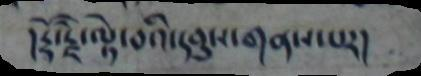།རྡོ་རྗེ་ལྟེ་བའི་དབུས་གནས་པར།
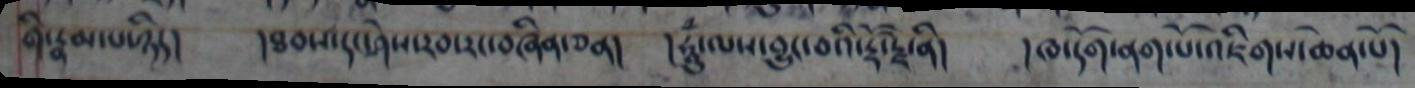གི་རྣམ་པ་ཉིད། །ཐབས་དང་ཤེས་རབ་རང་བཞིན་ཅན། །ཧཱུཾ་ལས་བྱུང་བའི་རྡོ་རྗེ་ནི། །ཁ་དོག་ནག་པོ་འཇིགས་ཆེན་པོ།
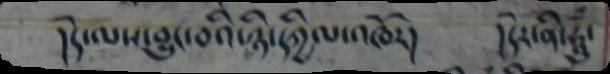།དེ་ལས་བྱུང་བའི་ཉཱི་དཀྱིལ་འཁོར། །དེར་ནི་ཧཱུཾ་
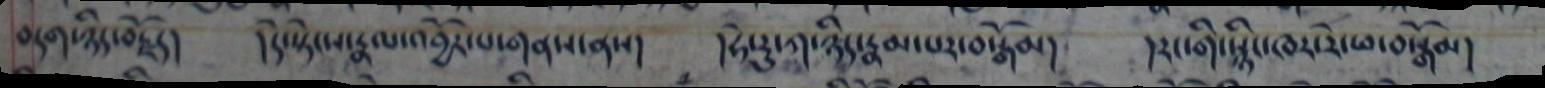བདག་ཉིད་བརྗོད། །དེ་སྟེངས་རྣལ་འབྱོར་པ་གནས་ནས། །ཧེ་རུ་ཀ་ཉིད་རྣམ་པར་བསྒོམ། །རང་གི་སྙིང་ཁར་རེ་ཕ་བསྒོམ།
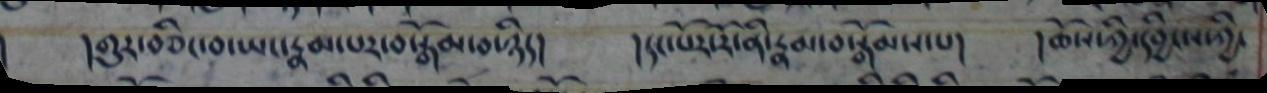།གུར་བཅིང་བ་ཡང་རྣམ་པར་བསྒོམ་བ་ཉིད། །དང་པོར་རོ་ནི་རྣམ་བསྒོམས་པ། །ཆོས་ཀྱི་དབྱིངས་ཀྱི་
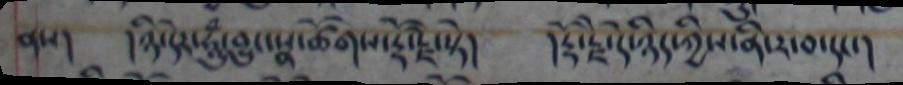ནས། །ཉི་དེར་ཧཱུཾ་བྱུང་སྣ་ཚོགས་རྡོ་རྗེ་སྟེ། །རྡོ་རྗེ་དེ་ཉིད་ཀྱིས་ནི་ར་བ་དང་།
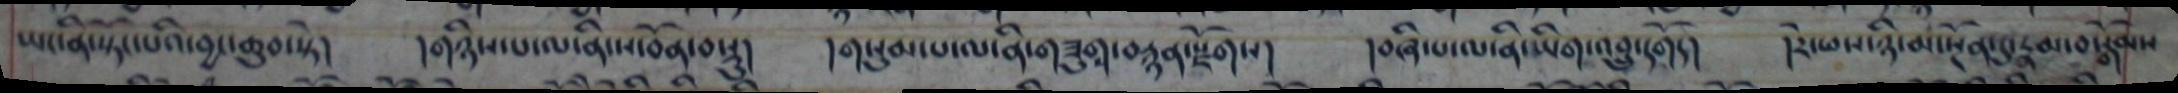ཡང་ནི་སྟོང་པའི་བྱང་ཆུབ་སྟེ། །གཉིས་པ་ལ་ནི་ས་བོན་བསྡུ། །གསུམ་པ་ལ་ནི་གཟུག་བརྙན་སྫོགས། །བཞི་པ་ལ་ནི་ཡིག་འབྲུ་དགོད། །རེ་ཕས་ཉི་མ་སྔོན་དུ་རྣམ་བསྒོམས
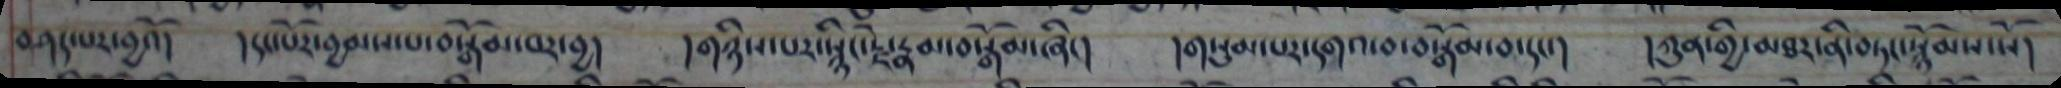བཤད་པར་བྱའོ། །དང་པོར་བྱམས་པ་བསྒོམ་བར་བྱ། །གཉིས་པར་སྙིང་རྗེ་རྣམ་བསྒོམ་ཞིང། །གསུམ་པར་དགའ་བ་བསྒོམ་བ་དང་། །ཀུན་གྱི་མཐར་ནི་བཏང་སྙོམས་སོ།
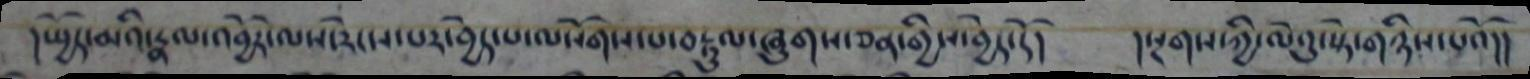།སྤྱོད་མའི་རྣལ་འབྱོར་ལས་རེངས་པར་བྱེད་པ་ལསོགས་པ་བརྟུལ་ཞུགས་ཅན་གྱིས་བྱེད་དོ། །སྔགས་ཀྱི་ལེའུ་སྟེ་གཉིས་པའོ།།
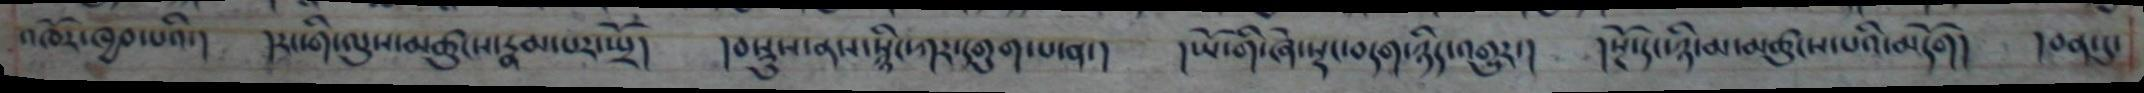འཁོར་ཁྱབ་པའི་། །རང་གི་ལུས་མཚུངས་རྣམ་པར་སྤྲོ། །བསྡུས་ནས་སྙིང་ཀར་དགུག་པ་ན་། ཡོ་གི་ཞེ་སྡང་བདག་ཉིད་འགྱུར་། །སྔོ་དང་ཉི་མ་མཚུངས་པའི་མདོག། །བན་དུ་
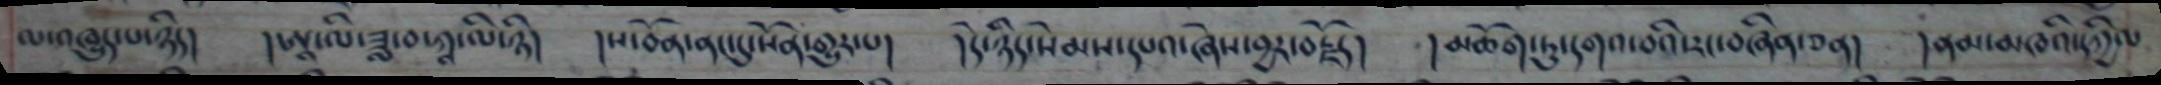མ་འཁྱུད་པ་ཉིད།  །ཨཱ་ལི་ཟླ་བ་ཀཱ་ལི་ཉི།  །ས་བོན་ནང་དུ་སོན་གྱུར་པ།  །དེ་ཉིད་སེམས་དཔའ་ཞེས་བྱར་བརྗོད།  །མཆོག་ཏུ་དགའ་བའི་རང་བཞིན་ཅན།   །ནམ་མཁའི་དཀྱིལ
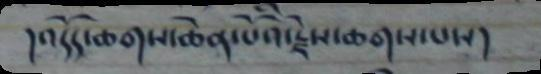།འདོད་ཆགས་ཆེན་པོའི་རྗེས་ཆགས་པས།
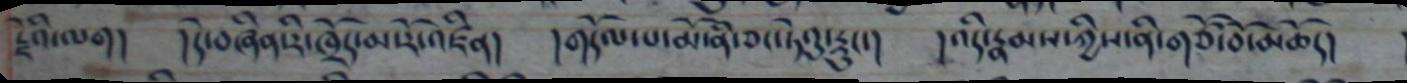རྗེའི་ལག།  །དེ་བཞིན་རི་ཁྲོད་མ་རོ་འཛིན།  །གདོལ་པ་མོ་ནི་ཅང་ཏེའུ་རྟུང་།  །འདི་རྣམས་ཀྱིས་ནི་གཙོ་བོ་མཆོད
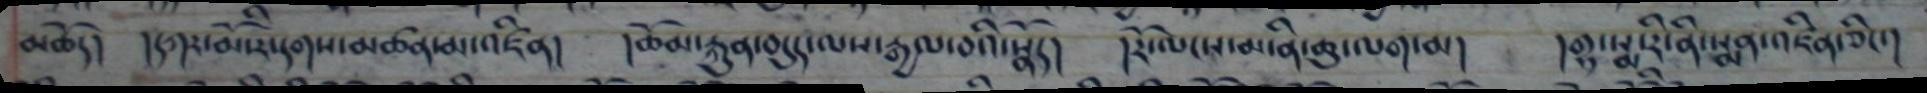མཆོད།  །དཀར་མོ་རི་དགས་མཚན་མ་འཛིན།  །ཆོམ་རྐུན་བདུད་ལས་རྒྱལ་བའི་སྣོད།  །རོ་ལངས་མ་ནི་ཆུ་ལག་མ། །གྷ་སྨ་རི་ནི་སྨན་འཛིན་ཅིང་།
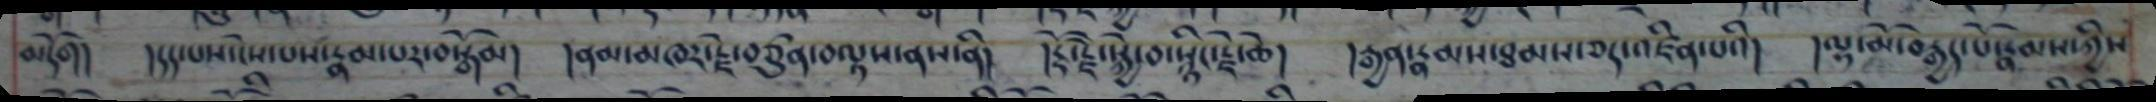མདོག།  །དད་པས་ངེས་པས་རྣམ་པར་བསྒོམ།  །ནམ་མཁར་རྗེ་བཙུན་བལྟས་ནས་ནི།  །རྡོ་རྗེ་སྐྱེ་བ་སྙིང་རྗེ་ཆེ།   རྒྱན་རྣམས་ཐམས་ཅད་འཛིན་པའི།  །ལྟ་མོ་བརྒྱད་པོ་རྣམས་ཀྱིས
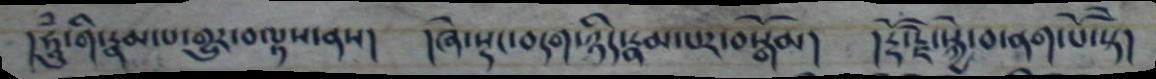།ཧཱུཾ་གི་རྣམ་པ་གྱུར་བལྟས་ནས། །ཞེ་སྡང་བདག་ཉིད་རྣམ་པར་བསྒོམ། །རྡོ་རྗེ་སྐྱེ་བ་ནག་པོ་སྟེ།
